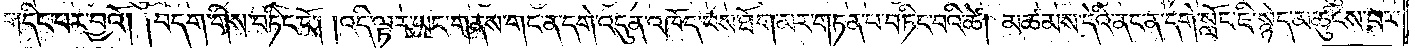གདིང་པར་བྱའོ། །བདག་གིས་བཏིང་ངོ༌། །འདི་ལྟར་ཡང་གནས་གང་ན་དགེ་འདུན་འཁོད་པས་ཐོག་མར་གཏན་པ་བཏིང་བའི་ཚེ། མཚམས་དེའི་ནང་ན་དགེ་སློང་ཇི་སྙེད་མཚུངས་པར་
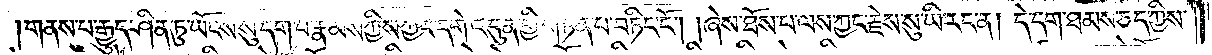གནས་པ་རྒྱུད་ཤིན་ཏུ་ཡོངས་སུ་དག་པ་རྣམས་ཀྱིས་ཀྱང་དགེ་འདུན་གྱི་གཏན་པ་བཏིང་ངོ༌། །ཞེས་ཐོས་པ་ལས་ཀྱང་རྗེས་སུ་ཡི་རང་ན། དེ་དག་ཐམས་ཅད་ཀྱིས་
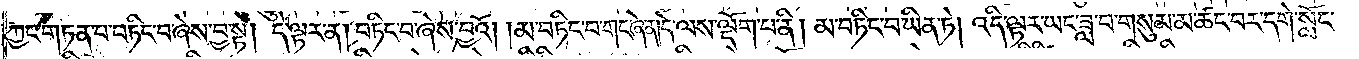ཀྱང་གཏན་པ་བཏིང་བ་ཞེས་བྱ་སྟེ། དེ་ལྟར་ན། བཏིང་བ་ཞེས་བྱའོ། །མ་བཏིང་བ་གང་ཞེ་ན། དེ་ལས་ལྡོག་པ་ནི། མ་བཏིང་བ་ཡིན་ཏེ། འདི་ལྟར་ཡང་ཟླ་བ་གསུམ་མ་ཚང་བར་དགེ་སློང་
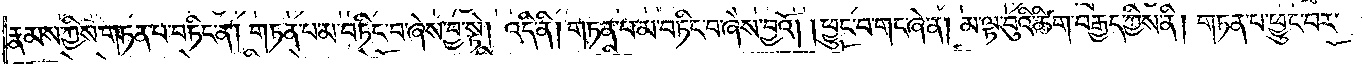རྣམས་ཀྱིས་གཏན་པ་བཏིང་ན། གཏན་པ་མ་བཏིང་བ་ཞེས་བྱ་སྟེ། འདི་ནི། གཏན་པ་མ་བཏིང་བ་ཞེས་བྱའོ། །ཕྱུང་བ་གང་ཞེ་ན། མ་ལྟ་བུའི་ཚིག་བརྒྱད་ཀྱིས་ནི། གཏན་པ་ཕྱུང་བར་
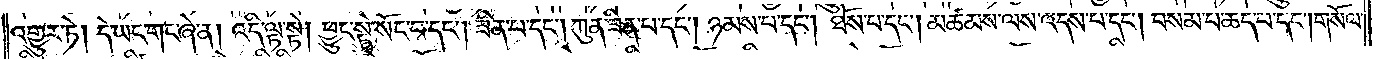འགྱུར་ཏེ། དེ་ཡང་གང་ཞེ་ན། འདི་ལྟ་སྟེ། ཕྱུང་སྟེ་སོང་བ་དང༌། ཟིན་པ་དང༌། ཀུན་ཟིན་པ་དང༌། ཉམས་པ་དང༌། ཐོས་པ་དང༌། མཚམས་ལས་འདས་པ་དང༌། བསམ་པ་ཆད་པ་དང༌། གསོལ་
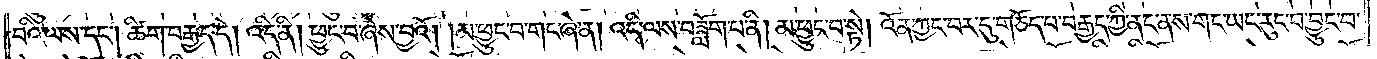བའི་ལས་དང༌། ཚིག་བརྒྱད་དེ། འདི་ནི། ཕྱུང་བ་ཞེས་བྱའོ། །མ་ཕྱུང་བ་གང་ཞེ་ན། འདི་ལས་བཟློག་པ་ནི། མ་ཕྱུང་བ་སྟེ། འོན་ཀྱང་བར་དུ་གཅོད་པ་བརྒྱད་ཀྱི་ནང་ནས་གང་ཡང་རུང་བ་བྱུང་བ་
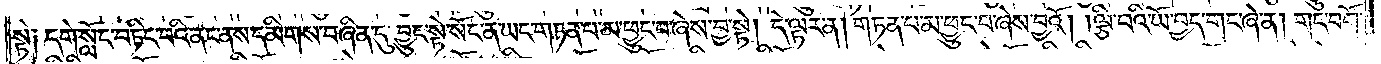སྟེ༑ དགེ་སློང་བཏིང་བའི་ནང་ནས་དམིགས་བཞིན་དུ་བྱུང་སྟེ་སོང་ན་ཡང་གཏན་པ་མ་ཕྱུང་བ་ཞེས་བྱ་སྟེ། དེ་ལྟར་ན། གཏན་པ་མ་ཕྱུང་བ་ཞེས་བྱའོ། །ལྕི་བའི་ཡོ་བྱད་གང་ཞེ་ན། གང་བགོ་
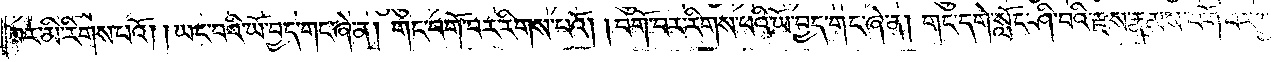བར་མི་རིགས་པའོ། །ཡང་བའི་ཡོ་བྱད་གང་ཞེ་ན། གང་བགོ་བར་རིགས་པའོ། །བགོ་བར་རིགས་པའི་ཡོ་བྱད་གང་ཞེ་ན། གང་དགེ་སློང་ཤི་བའི་རྫས་རྣམས་བགོ་བར་བྱ་སྟེ། དེ་ཡང་
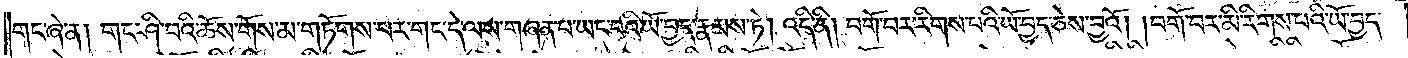གང་ཞེ་ན། གང་ཤི་བའི་ཆོས་གོས་མ་གཏོགས་པར་གང་དེ་ལས་གཞན་པ་ཡང་བའི་ཡོ་བྱད་རྣམས་ཏེ། འདི་ནི། བགོ་བར་རིགས་པའི་ཡོ་བྱད་ཅེས་བྱའོ། །བགོ་བར་མི་རིགས་པའི་ཡོ་བྱད་
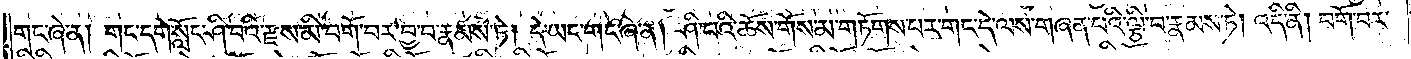གང་ཞེ་ན། གང་དགེ་སློང་ཤི་བའི་རྫས་མི་བགོ་བར་བྱ་བ་རྣམས་ཏེ། དེ་ཡང་གང་ཞེ་ན། ཤི་བའི་ཆོས་གོས་མ་གཏོགས་པར་གང་དེ་ལས་གཞན་པའི་ལྕི་བ་རྣམས་ཏེ། འདི་ནི། བགོ་བར་
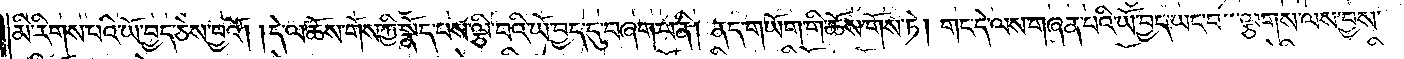མི་རིགས་པའི་ཡོ་བྱད་ཅེས་བྱའོ། །དེ་ལ་ཆོས་གོས་ཀྱི་སྣོད་པས་ལྕི་བའི་ཡོ་བྱད་དུ་བཞག་པ་ནི། ནད་གཡོག་གི་ཆོས་གོས་ཏེ། གང་དེ་ལས་གཞན་པའི་ཡོ་བྱད་ཡང་བ་ལྕགས་ལས་བྱས་
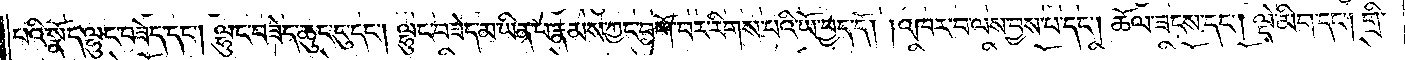པའི་སྣོད་ལྷུང་བཟེད་དང༌། ལྷུང་བཟེད་ཆུང་ངུ་དང༌། ལྷུང་བཟེད་མ་ཡིན་པ་རྣམས་ཀྱང་བགོ་བར་རིགས་པའི་ཡོ་བྱད་དོ། །འཁར་བ་ལས་བྱས་པ་དང༌། ཆོལ་ཟངས་དང༌། ལྡེ་མིག་དང༌། གྲི་
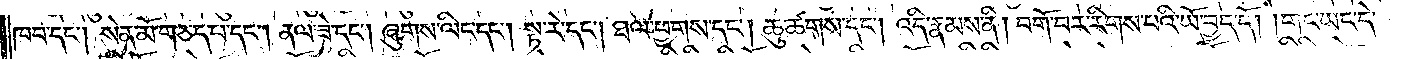ཁབ་དང༌། སེན་མོ་གཅད་པ་དང༌། ནལ་ཟེ་དང༌། ཞུགས་ལིང་དང༌། སྟ་རེ་དང༌། ཐལ་ཕྱགས་དང༌། ཆུ་ཚགས་དང༌། འདི་རྣམས་ནི། བགོ་བར་རིགས་པའི་ཡོ་བྱད་དོ། །གང་ཡང་དེ་
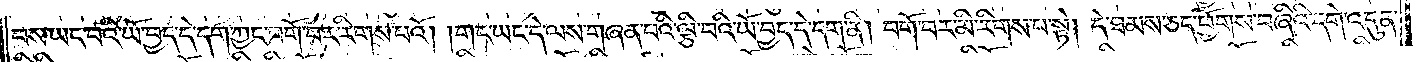བས་ཡང་བའི་ཡོ་བྱད་དེ་དག་ཀྱང་བགོ་བར་རིགས་པའོ། །གང་ཡང་དེ་ལས་གཞན་པའི་ལྕི་བའི་ཡོ་བྱད་དེ་དག་ནི། བགོ་བར་མི་རིགས་པ་སྟེ། དེ་ཐམས་ཅད་ཕྱོགས་བཞིའི་དགེ་འདུན་
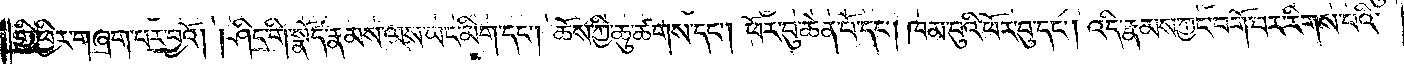གྱི་ཕྱིར་གཞག་པར་བྱའོ། །ཤིང་གི་སྣོད་རྣམས་ལས་ཡང་མིག་དང༌། ཆོས་ཀྱི་ཆུ་ཚགས་དང༌། ཕོར་བུ་ཆེན་པོ་དང༌། ཁམ་བུའི་ཕོར་བུ་དང༌། འདི་རྣམས་ཀྱང་བགོ་བར་རིགས་པའི་
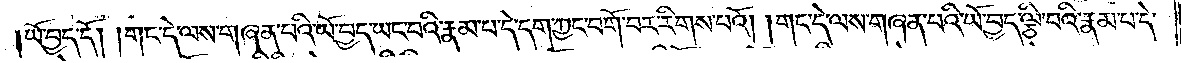ཡོ་བྱད་དོ། །གང་དེ་ལས་གཞན་པའི་ཡོ་བྱད་ཡང་བའི་རྣམ་པ་དེ་དག་ཀྱང་བགོ་བར་རིགས་པའོ། །གང་དེ་ལས་གཞན་པའི་ཡོ་བྱད་ལྕི་བའི་རྣམ་པ་དེ་
